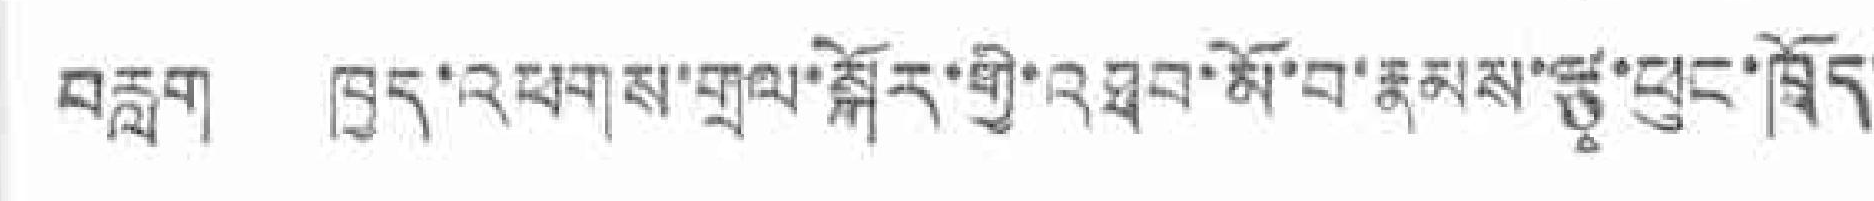བརླག ཁྱད་འཕགས་གྲལ་སྐོར་ཀྱི་འཐབ་མོ་བ་རྣམས་རྩྭ་ཕུང་ཁྲོད་
